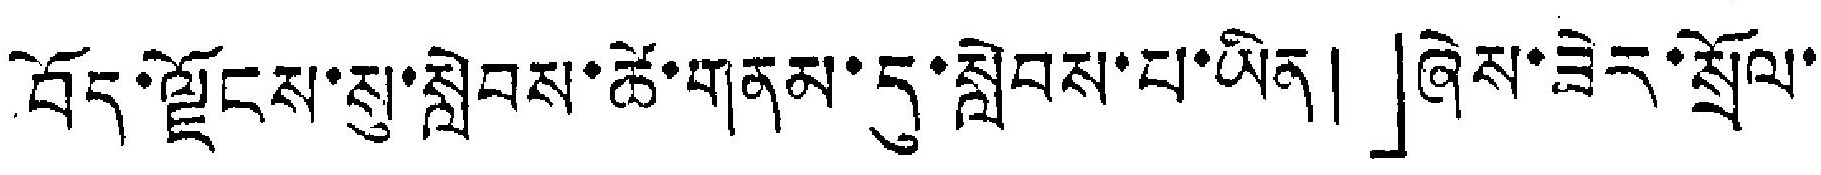བོད་ལྗོངས་སུ་སླེབས་ཚེ་གནམ་དུ་སླེབས་པ་ཡིན།」ཞེས་ཟེར་སྲོལ་
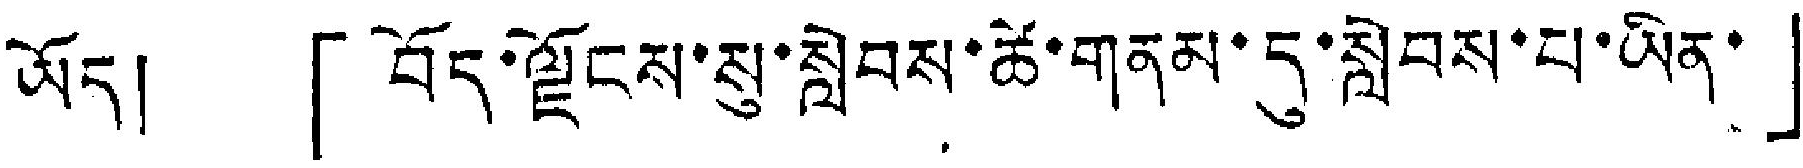ཡོད། 「བོད་ལྗོངས་སུ་སླེབས་ཚེ་གནམ་དུ་སླེབས་པ་ཡིན་」
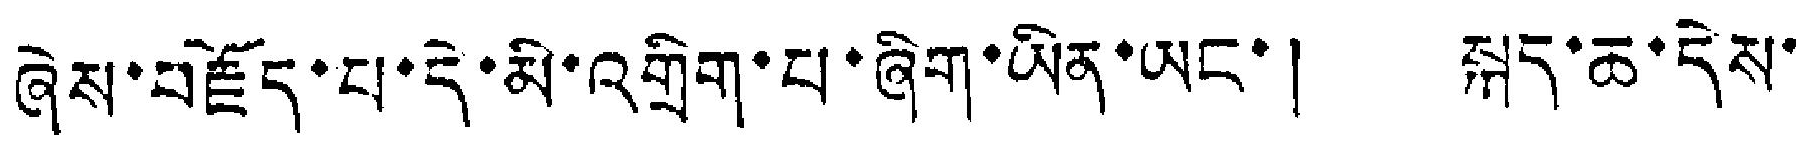ཞེས་བརྗོད་པ་དེ་མི་འགྲིག་པ་ཞིག་ཡིན་ཡང་། སྐད་ཆ་དེས་
